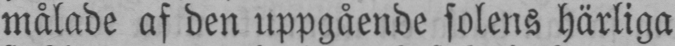målade af den uppgående solens härliga
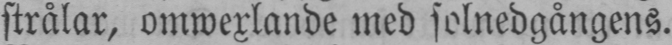strålar, omwexlande med solnedgångens.
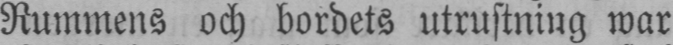Rummens och bordets utrustning war
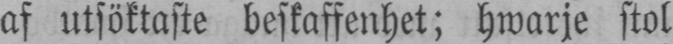af utsöktaste beskaffenhet; hwarje stol
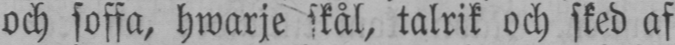och soffa, hwarje skål, talrik och sked af
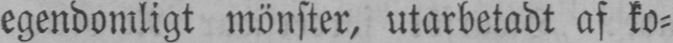egendomligt mönster, utarbetadt af ko-
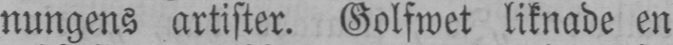nungens artister. Golfwet liknade en
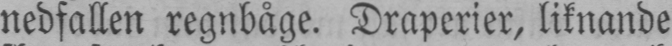nedfallen regnbåge. Draperier, liknande
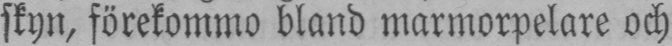skyn, förekommo bland marmorpelare och
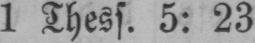1 Thess. 5: 23
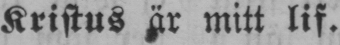Kristus är mitt lif.
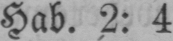Hab. 2: 4.
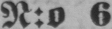N:o 6
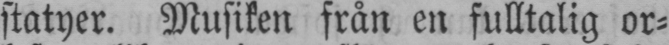statyer. Musiken från en fulltalig or-
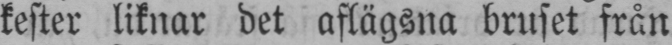kester liknar det aflägsna bruset från
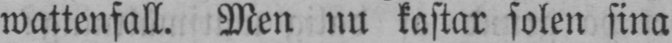wattenfall. Men nu kastar solen sina
